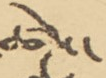ཚེས་
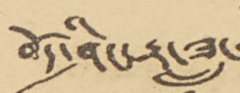བོད་ཤིང་རྟ་ཟླ་
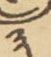༣
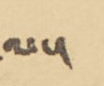ལ་།
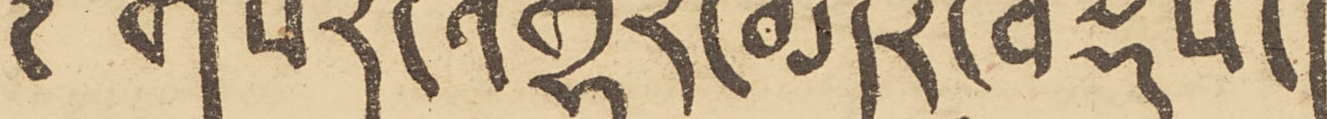གསར་འགྱུར་མདོར་བསྡུས་།
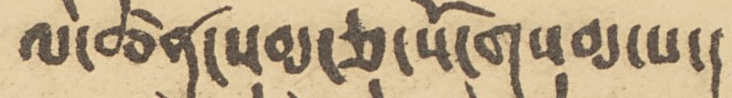ལེ་ཚན་སུམ་ཅུ་སོ་གསུམ་པ་།
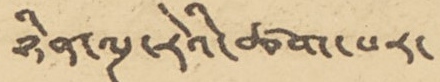ཉིན་ལྔ་རེའི་ཚག་པར་
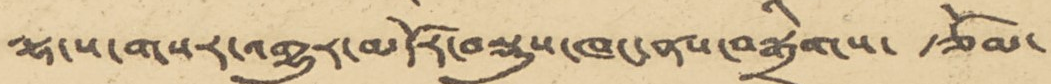ལྷ་ས་གསར་འགྱུར་མདོར་བསྡུས་ཁང་ནས་བསྒྲིགས་ རྩོམ་
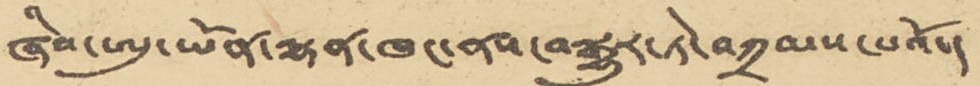ཞིབ་ཨུ་ཡོན་ལྷན་ཁང་ནས་བསྒྱུར་ཏེ་བཀྲམས་པའོ་།
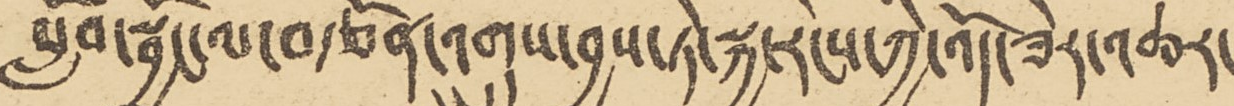སློབ་སྦྱོང་ལ་བརྩོན་འགྲུས་བྱས་ཏེ་སྐྱ་རེངས་ཀྱི་འོད་ཟེར་འཆར་
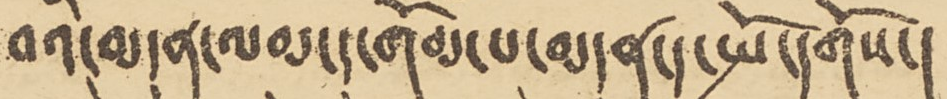བའི་མདུན་ལམ་དུ་གོམ་པ་མདུན་དུ་སྤོ་དགོས་།
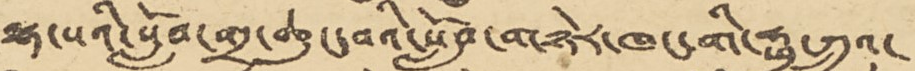ལྷ་སའི་སློབ་གྲྭ་ཆུང་བའི་སློབ་གཉེར་ཁང་གི་ཧྥུ་ཀྲུའུ་
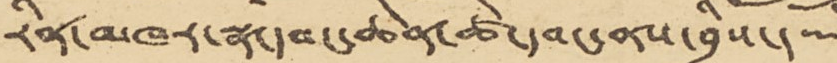རིན་མཁར་སྣ་དབང་ཆེན་ཚེ་དབང་ནས་བྲིས་།
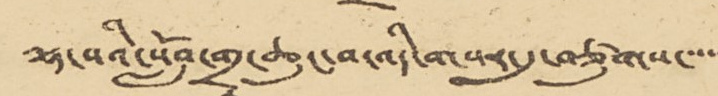ལྷ་སའི་སློབ་གྲྭ་ཆུང་བ་འདི་གསར་དུ་བཙུགས་་་་་
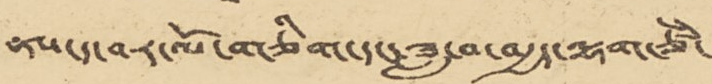ནས་ད་བར་ལོ་གཅིག་དང་ཟླ་བ་བརྒྱད་ལྷག་ཙཾ་
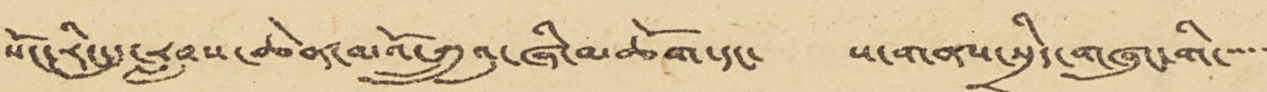སོང་རིང་དུ་རླབས་ཆེན་མའོ་ཀྲུའུ་ཞི་མཆོག་དང་ ས་གནས་སྲིད་གཞུང་གི་་་་་
